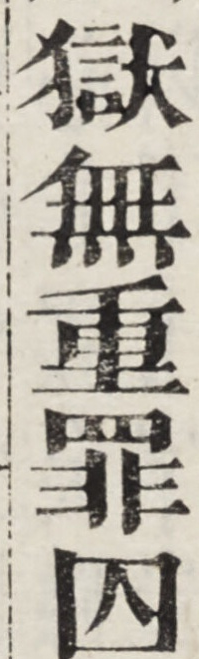獄無重罪囚
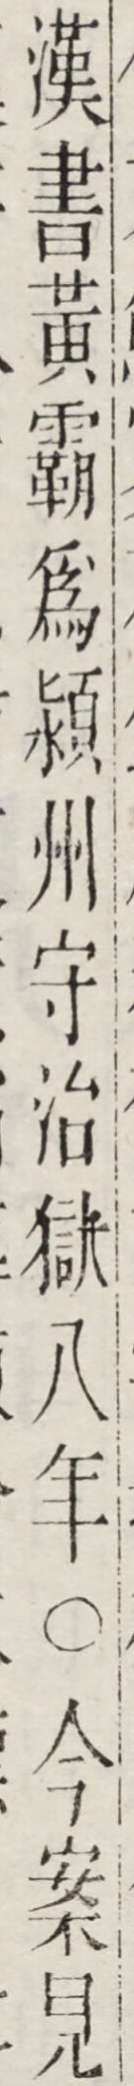漢書黃霸為潁州守治獄八年○今案見
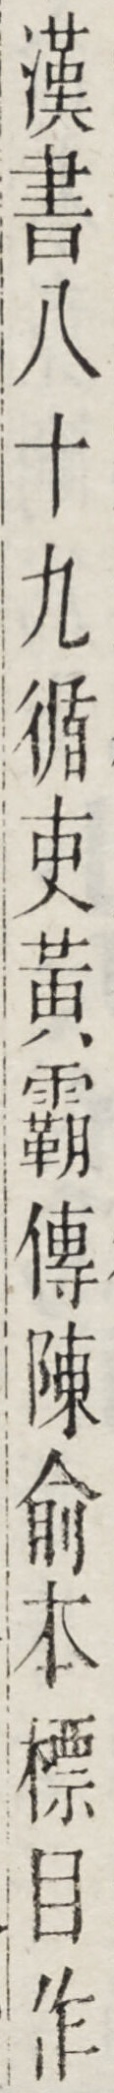漢書八十九循吏黃霸傳陳俞本標目作
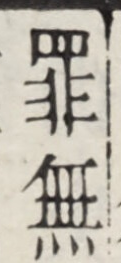罪無
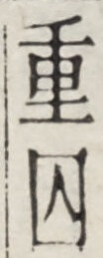重囚
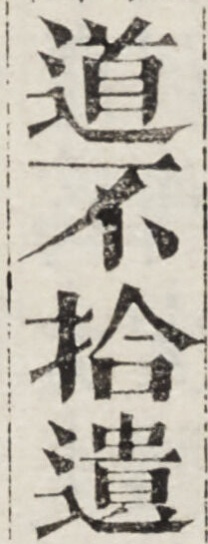道不拾遺
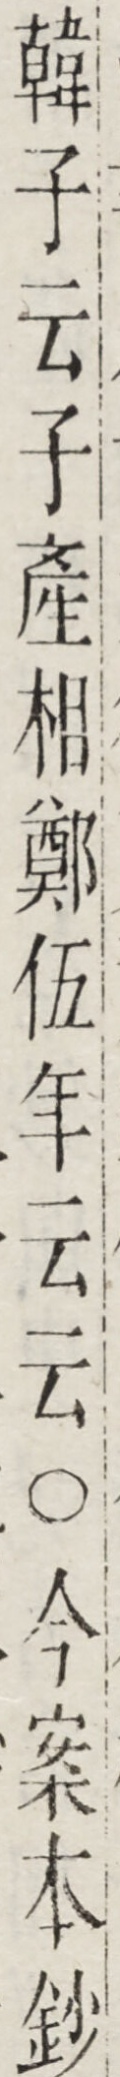韓子云子產相鄭伍年云云○今案本鈔
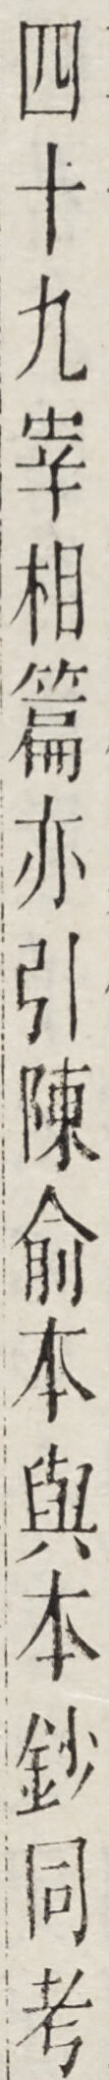四十九宰相篇亦引陳俞本與本鈔同考
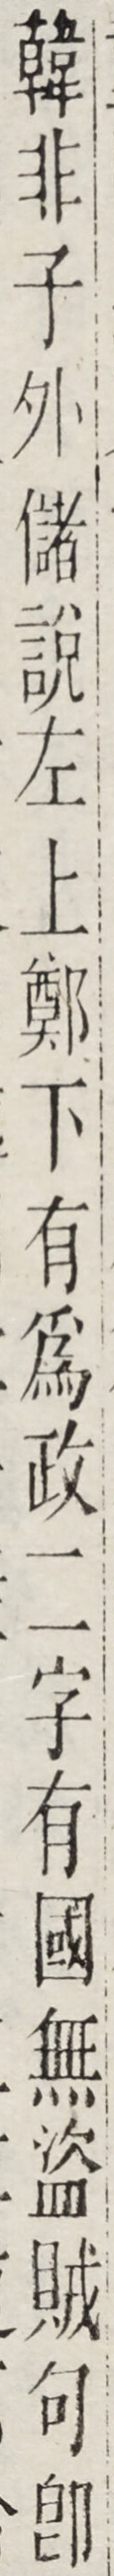韓非子外儲說左上鄭下有為政二字有國無盜賊句即
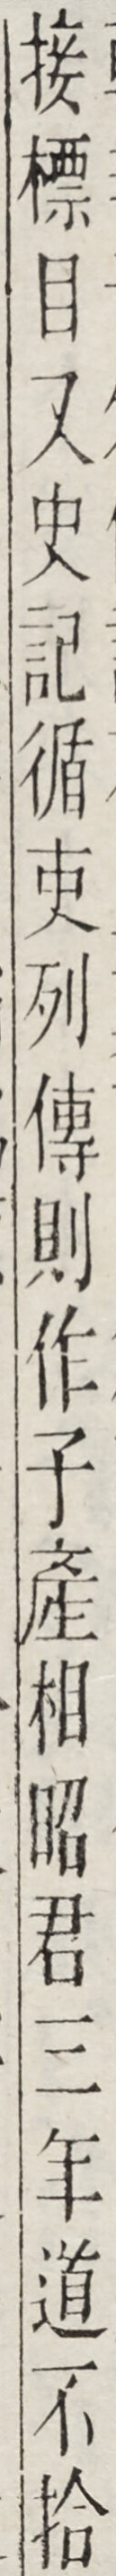接標目又史記循吏列傳則作子產相昭君三年道不拾
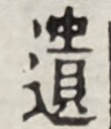遺
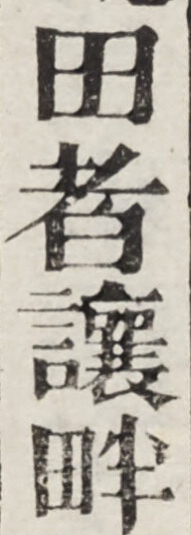田者讓畔
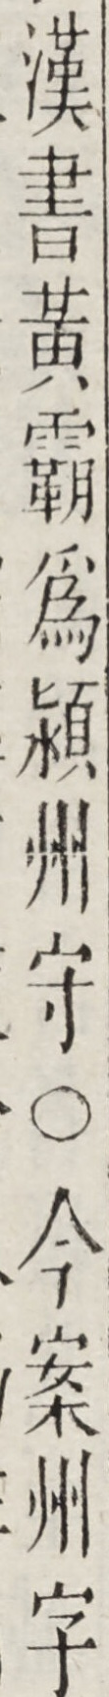漢書黃霸為潁州守○今案州字
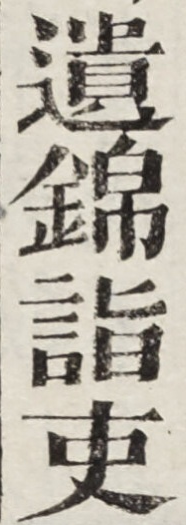遺錦詣吏
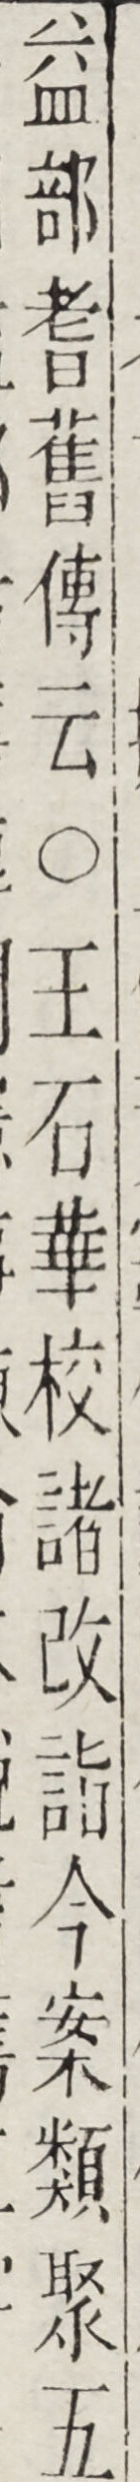益部耆舊傳云○王石華校諸改詣今案類聚五
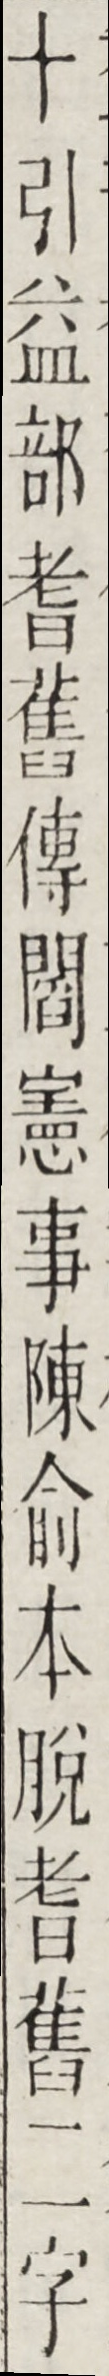十引益部耆舊傳閻憲事陳俞本脫耆舊二字
